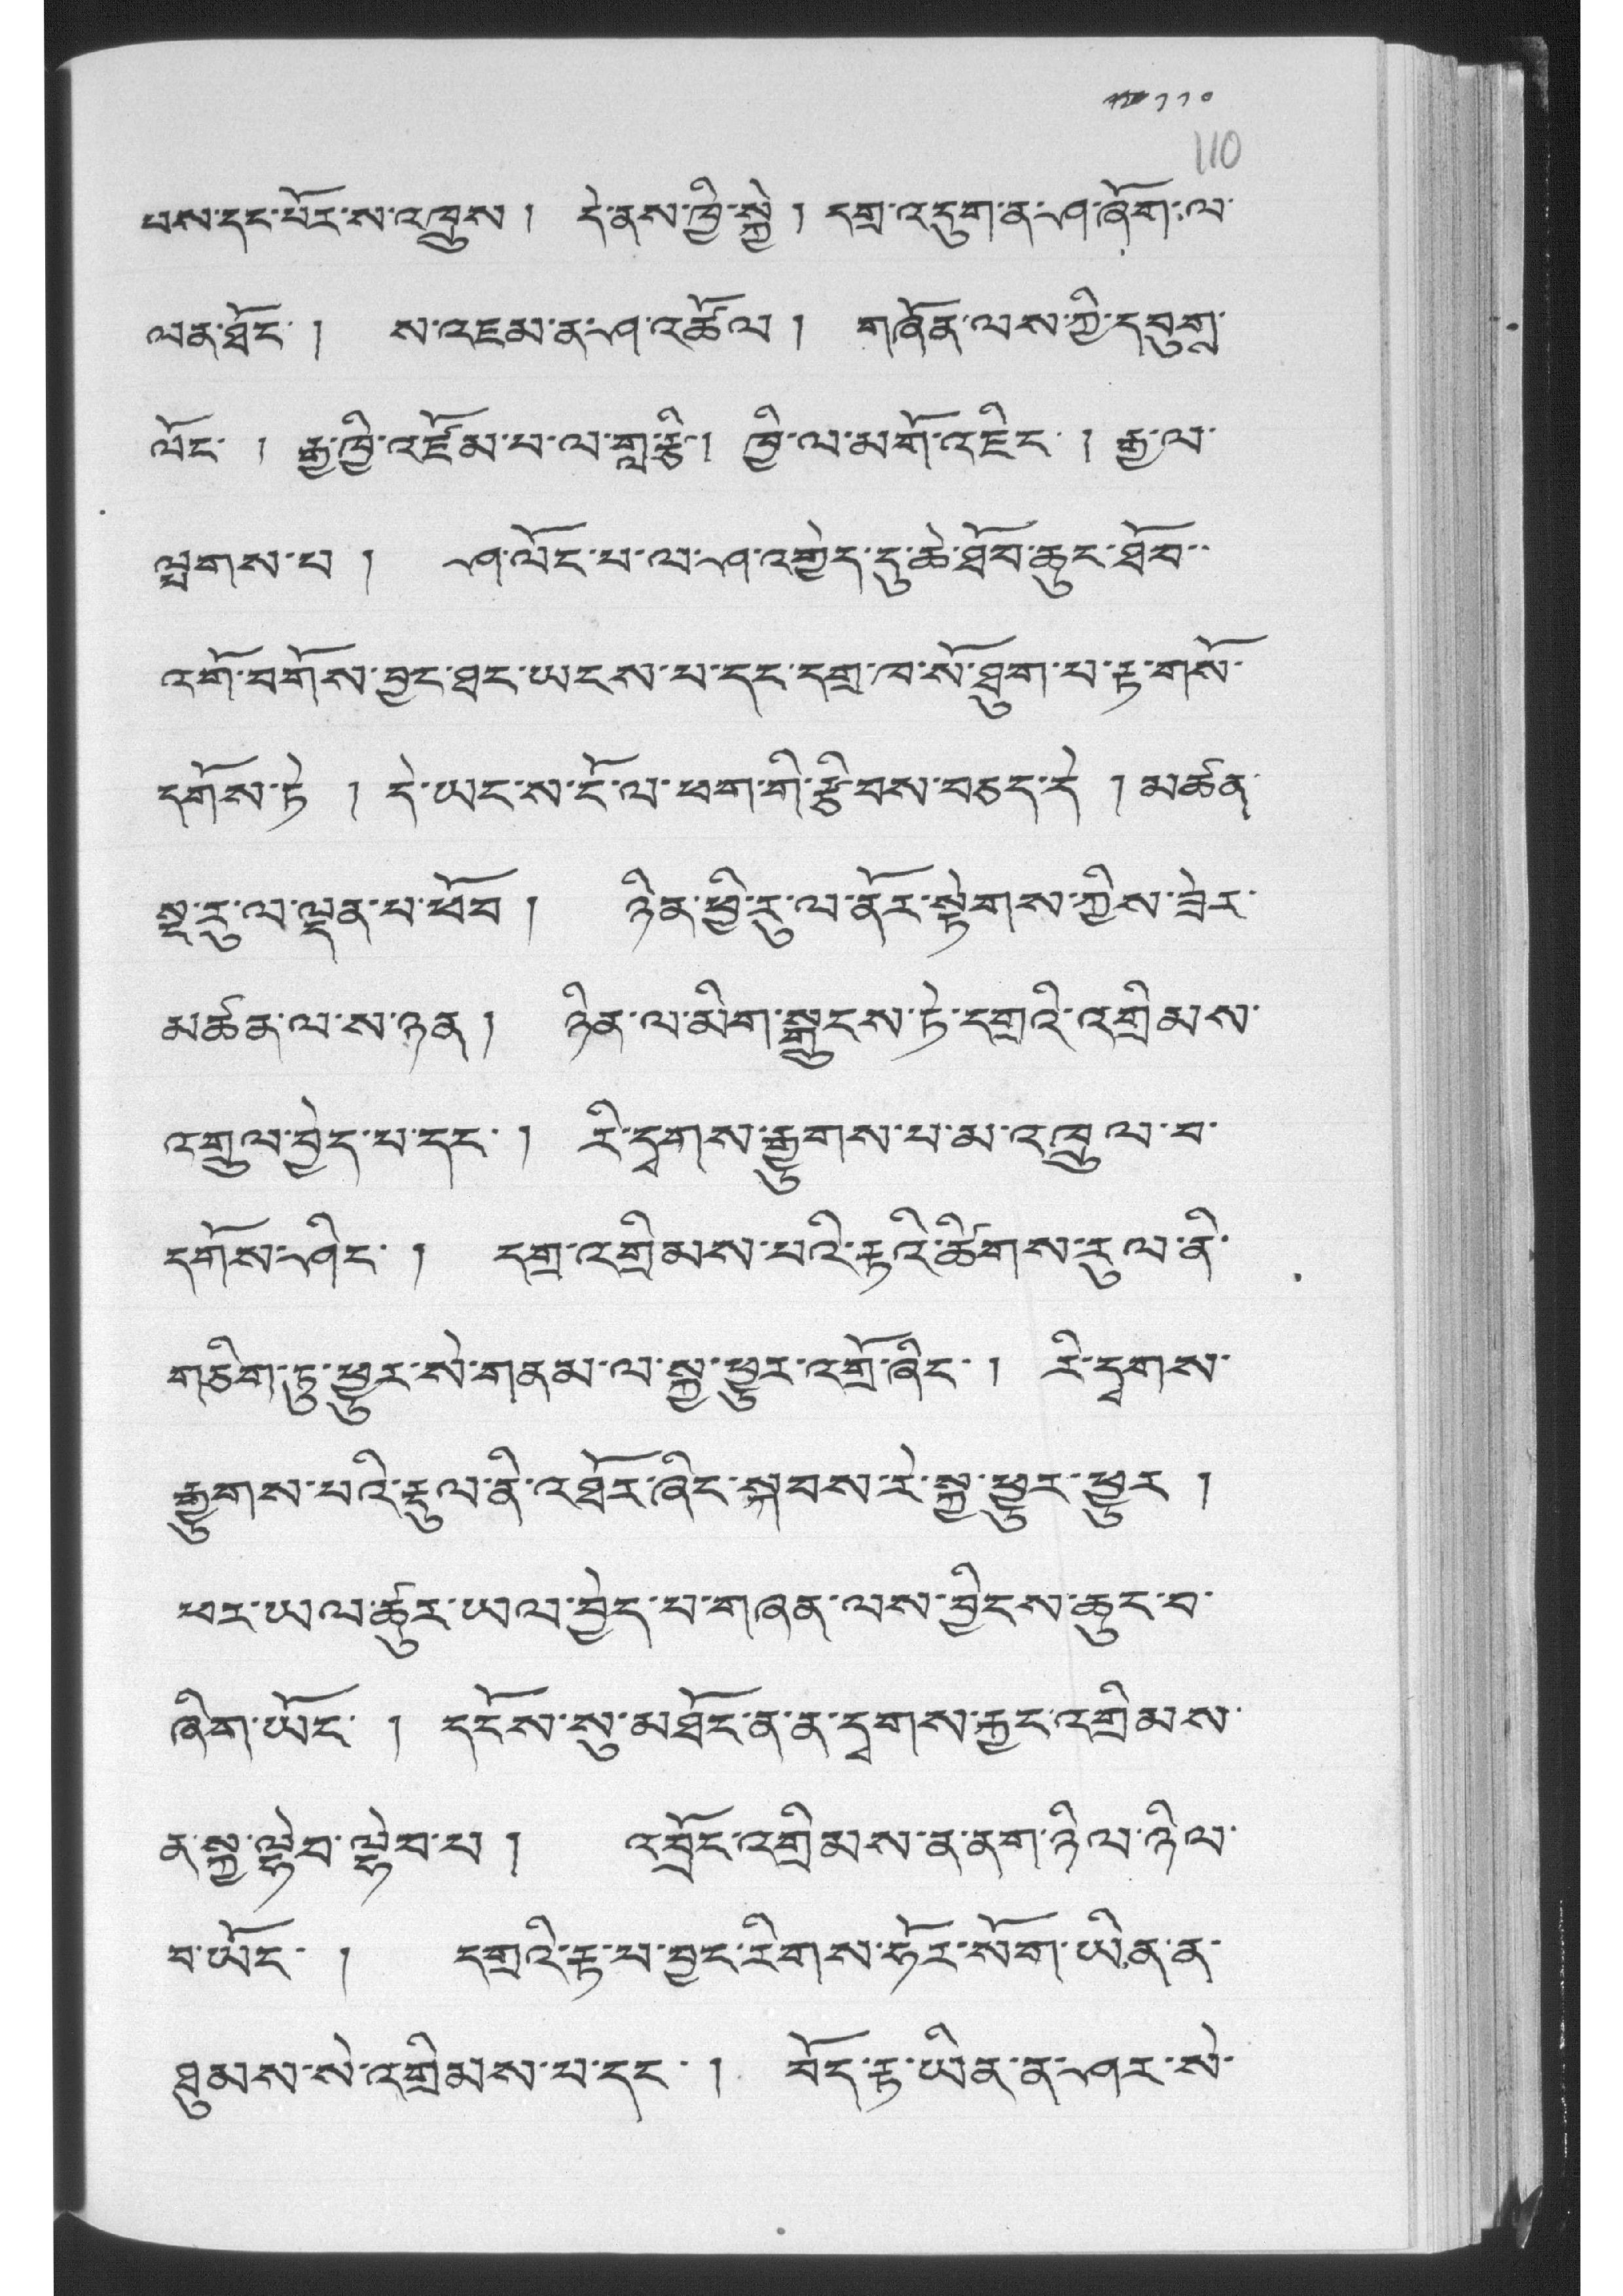༡༢༠ ༡༡༠
པས་དང་པོར་ས་འཁྲུས ། དེ་ནས་ཁྱི་སྐྱེ ། དགྲ་འདུག་ན་ཤ་ཞོག་ལ་
ལན་ཐོང་ ། ས་འཇམ་ན་ཤ་འཚོལ ། གཞོན་ལས་ཀྱི་དབུགས་
ལོང་ ། རྒྱ་ཁྱི་འཛོམ་པ་ལ་གླ་རྩི། ཁྱི་ལ་མགོ་འཇིང་། རྒྱ་ལ་
ལྤགས་པ ། ཤ་ལོང་པ་ལ་ཤ་འགྱེད་དུ་ཆེ་ཐོབ་ཆུང་ཐོབ་་
འགོ་བགོས་བྱང་ཐང་ཡངས་པ་དང་དགྲ་ཁ་སོ་ཐུག་པ་རྟ་གསོ་
དགོས་ཏེ ། དེ་ཡང་ས་ངོ་ལ་ཕག་གི་རྩིབས་བཅད་རདེ ། མཚན་
སྔ་རུ་ལ་ལྡན་པ་ཕོབ ། ཉིན་ཕྱི་རུ་ལ་ནར་སྟེགས་ཀྱིས་ཟེར་
མཚན་ལ་ས་ཉན། ཉིན་ལ་མིག་སྒྲུངས་ཏེ་དགྲའི་འགྲིམས་
འགྲུལ་བྱེད་པ་དང་། རི་དྭགས་རྒྱུགས་པ་མ་འཁྲུལ་བ་
དགོས་ཤིང་ ། དགྲ་འགྲིམས་པའི་རྟའི་ཚིགས་རུ་ལ་ནི་
གཅིག་ཏུ་ཕྱུར་སེ་གནམ་ལ་སྐྱ་ཕྱུར་འགྲོ་ཞིང་ ། རི་དྭགས་
རྒྱུགས་པའི་རྡུལ་ནི་འཐོར་ཞིང་སྐབས་རེ་སྐྱ་ཕྱུར་ཕྱུར །
ཕར་ཡལ་ཚུར་ཡལ་བྱེད་པ་གཞན་ལས་བྱིངས་ཆུང་བ་
ཞིག་ཡོང་ ། དངོས་སུ་མཐོང་ན་ན་དྭགས་རྐྱང་འགྲིམས་
ན་སྐྱ་ལྷེབ་ལྷེབ་པ ། འབྲོང་འགྲིམས་ན་ནག་ཉིལ་ཉིལ་
བ་ཡོང་ ། དགྲའི་རྟ་པ་བྱང་རིགས་ཧོར་སོག་ཡིན་ན་
ཐུམས་སེ་འགྲིམས་པ་དང་ ། བོད་རྟ་ཡིན་ན་ཤར་སེ་
